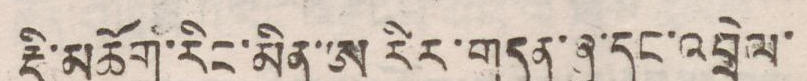རྡི་མཆོག་རིང་མིན་ཨ་རིར་གདན་ཞུ་དང་འབྲེལ་
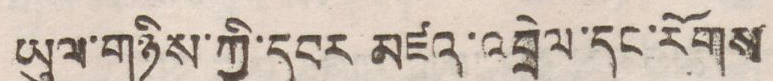ཡུལ་གཉིས་ཀྱི་དབར མཛའ་འབྲེལ་དང་རོགས
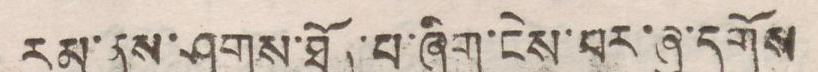རམ་ནུས་ཤུགས་ཐོན་པ་ཞིག་ངེས་པར་ཞུ་དགོས
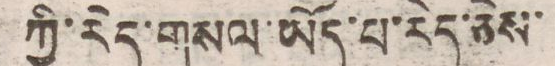ཀྱི་རེད་གསལ་ཡོད་པ་རེད་ཅེས་
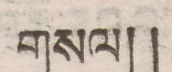གསལ།།
